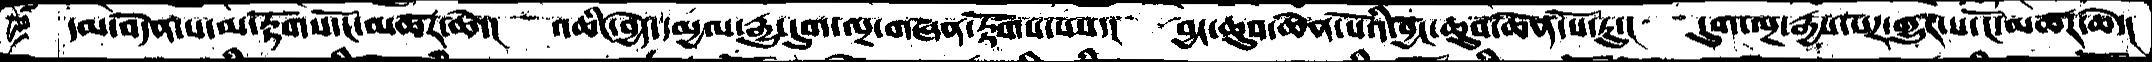དམ་བདེན་པ་མ་རྟོགས་ངོ་མཚར་ཆེ་།  འཆིང་བྱེད་དམྱལ་རྒྱུ་དུག་ལྔ་གཞན་རྟོགས་པས་།  བྱང་ཆུབ་ཆེན་པོའི་བྱང་ཆུབ་ཆེན་པོ་རུ་།  དུག་ལྔ་རྒྱས་པར་གྱུར་པ་ངོ་མཚར་ཆེ་།
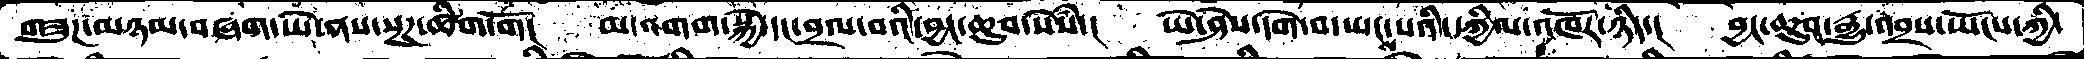གཟུགས་མཉམ་བཞག་ཡེ་ནས་སྔཌ་ཚིག་གོ།  མ་འགག་སྐྱེ་དང་བྲལ་བའི་བྱང་ཆུབ་སེཾས་།  ཡེ་ཤེས་དགེ་བ་ཡངས་པའི་དཀྱིལ་འཁོར་ཉིད་།  བྱང་ཆུབ་རྒྱུ་འབྲས་ཡོངས་ཀྱི་
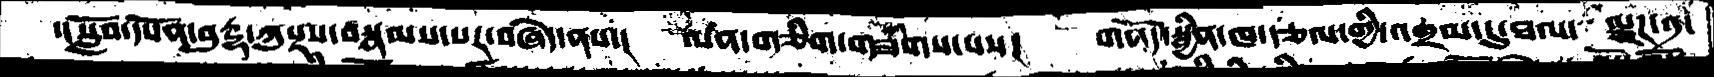་།སློབ་དཔོན་བུརྡྷ་ཀུཔྟས་བསྣམས་པར་བཞེད་ནས་།  ལན་གཅིག་གཟིགས་པས།  གནོད་སྦྱིན་ཁ་རྩལ་གྱི་འགྲམ་དུ་ཐལ་་ ལྗཌ་༡་
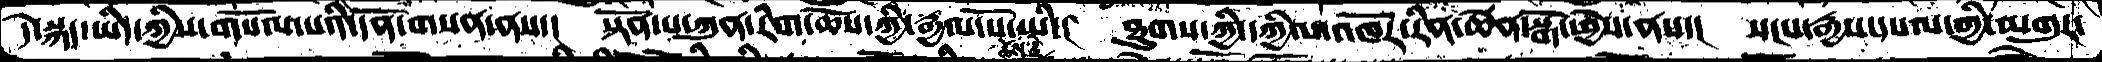དེ་སྐད་ཡིད་ཀྱིས་གསོལ་པའི་དོན་གསན་ནས་།  སྟོན་པ་ཀུན་རིག་ཆོས་ཀྱི་རྒྱལ་པོ་ཡི་།  ཐུགས་ཀྱི་དཀྱིལ་འཁོར་རིན་ཆེན་སྒོ་ཕྱེས་ནས་།  སངས་རྒྱས་དཔལ་གྱི་མགུར་
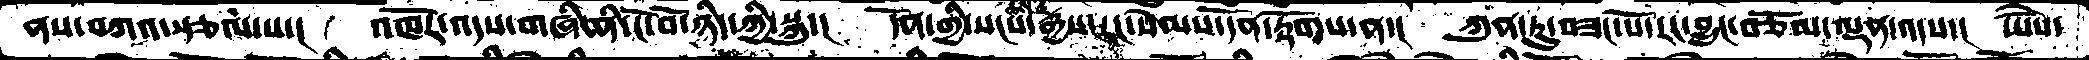ནས་བཀའ་སྩལ་པ་།  འཁོར་འདས་གཞི་ནི་ངོ་བོ་ཉིད་ཀྱི་སྐུ་།  དོན་གྱི་སངས་རྒྱས་རང་སེམས་དོན་རྟོགས་ན་།  ཀུན་ཏུ་བཟང་པོ་རང་བྱུང་བཅོམ་ལྡན་འདས་།  ཡཻས་
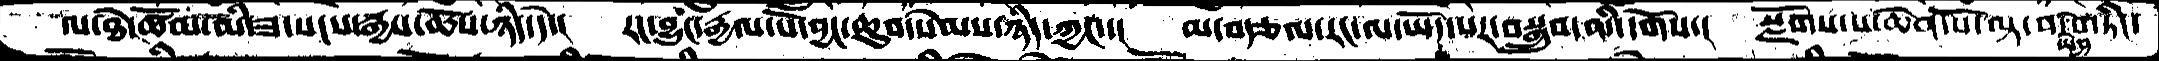ལ་ཐེ་ཚོམ་མི་ཟ་སངས་རྒྱས་ཆོས་ཉིད་དོ་།  རང་བྱུང་རྒྱལ་པོ་བྱང་ཆུབ་སེམས་ཉིད་ཀྱང་།  མ་བརྩལ་རང་ལ་ཡོད་པར་བསྒྲུབ་མི་དགོས་།  སྫོགས་པ་ཆེན་པོ་ལྟ་བ་སྤྱན་གཏིང་
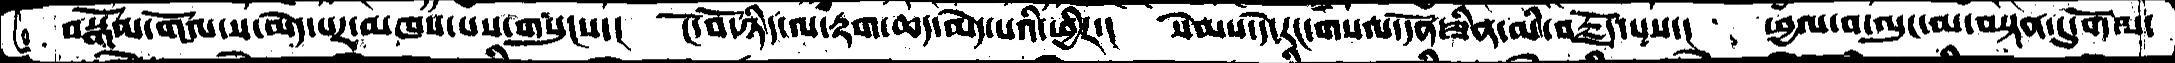བསྒོམ་གོལ་ས་མེད་པར་མཁས་པས་གསུངས་།  ངོ་བོ་ཉིད་ལ་རྟག་ཆད་མེད་པའི་ཕྱིར་།  སེམས་དེ་རང་གསལ་དོན་ཟིན་མི་བརྗོད་པས་།  ཕྱལ་བ་ལུང་མ་བསྟན་དུ་གོལ་
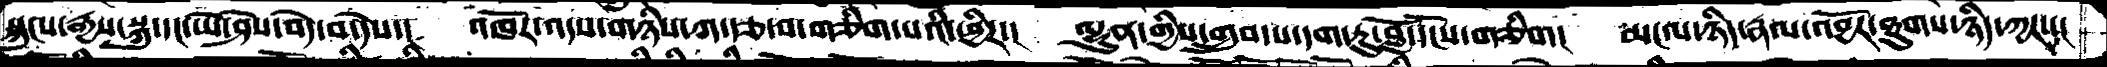སྐུངས་རྒྱས་སྐུ་དང་ཡེ་ཤེས་བདེ་བ་དེས་།  འཁོར་འདས་གཉིས་ཀ་རྩ་བ་གཅིག་པའི་ཕྱིར་།  ལྷུན་གྱིས་གྲུབ་པ་དག་ཏུ་བློ་དངོས་གཅིག།  མངལ་ཉིད་རྣལ་འབྱོར་ཐུགས་ཉིད་ཀྱང་།།།
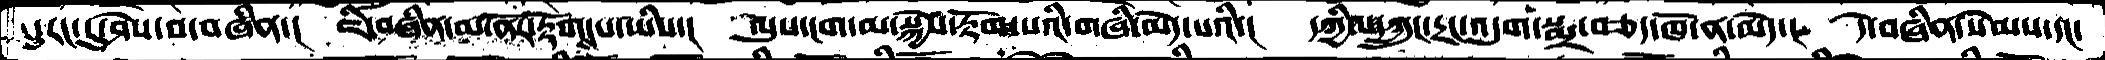དུ་རང་དུ་ཤེས་བ་བཞིན་།  ཇི་བཞིན་མ་ནོར་རྟོགས་པ་ཡིས་།  ལུས་ངག་མ་སྐྱེས་རྟོག་པའི་གཞི་མེད་པའི་།  དཀྱིལ་ཀྲུང་དྲང་འདུག་སྨྲ་བཅད་ཁོ་ན་མེད་།  དེ་བཞིན་སེམས་དང་
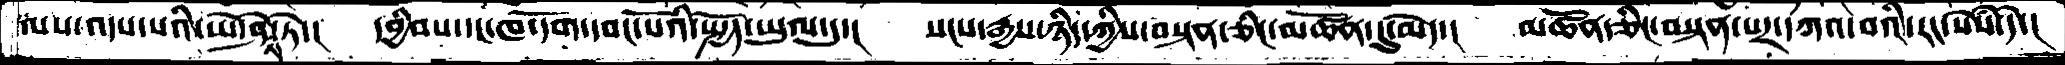ལས་འདས་པའི་ཡེ་ཤེས་ཏེ་།  དབྱིབས་དང་ཁ་དོག་དབང་པོའི་སྤྱོད་ཡུལ་དུ་།  སངས་རྒྱས་ཉིད་ཀྱིས་བསྟན་ཅིང་མཚོན་དུ་མེད་།  མཚོན་ཅིང་བསྟན་པར་དཀའ་བའི་རང་སེཾས་དེ་།
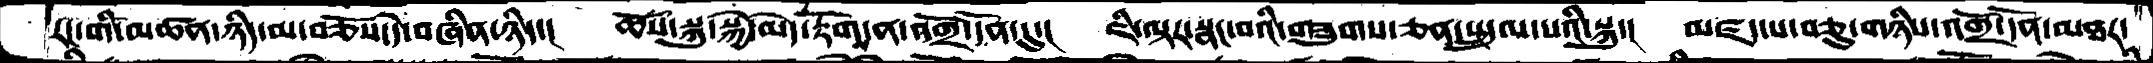རང་གི་མཚན་ཉིད་མ་བཅོས་དེ་བཞིན་ཉིད་། ཆོས་སྐུ་སྐྱེ་མེད་རྟོགས་ན་འགྲོ་དོན་དུ་། ཇི་ལྟར་སྣང་བའི་གཟུགས་ཅན་སྤྲུལ་པའི་སྐུ་། མཛད་པ་བཅུ་གཉིས་འགྲོ་དོན་མཐར་
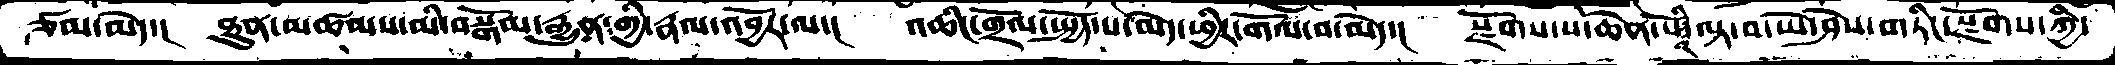ཙམ་མེད་། ཐུན་མཚམས་མི་བསྒོམ་རྒྱུན་གྱི་རྣལ་འབྱོར་ལ་། འཆིང་གྲོལ་སྤྱོད་པ་མེད་ཕྱིར་གོལ་བ་མེད་། སྫོགས་པ་ཆེན་པོའི་ལྟ་བ་ཡེ་ཤེས་གཏིང་སྫོགས་ཀྱི་
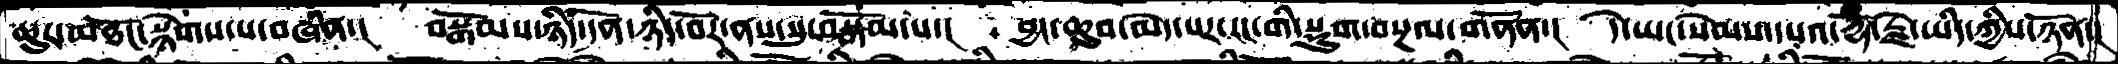ཆུར་མཐོང་སྙེགས་པ་བཞིན་།  བསྒོམས་ཉིད་དོན་ཉིད་བོར་ནས་སུ་བསྒོམ་པ་། བྱང་ཆུབ་མེད་པར་རང་གི་སྡུག་བསྔལ་གནོན་། དེ་ཡང་སེམས་དཔའ་རྡོ་རྗེ་ཡིད་ཀྱིས་ཉོན་།
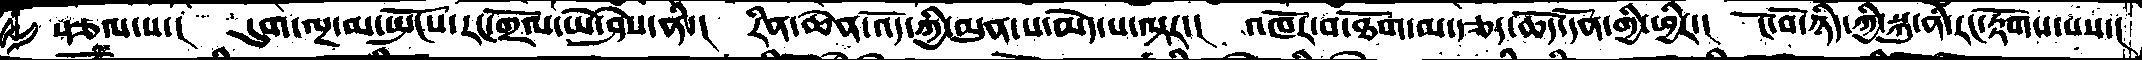སྩལ་པ་། དུག་ལྔ་མ་སྤོངས་རང་གྲོལ་ཡེ་ཤེས་ནི་། རིན་ཆེན་འོད་ཀྱི་མུན་པ་མེད་པ་ལྟར་། འཁོར་བ་ཐོག་མ་རྩད་ཆོད་དོན་གྱི་ཕྱིར་། ངོ་བོ་ཉིད་ཀྱི་སྐུ་ནི་རང་རྟོགས་པས་།
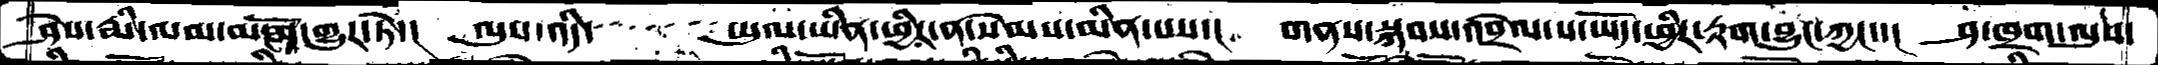ཤེས་རྨི་ལམ་མངོན་གྱུར་ཏེ་།  ལུས་འདི་་་་་་་ཡུལ་ཡིན་ཕྱིར་ན་སེམས་མིན་པས་། གནས་སྐབས་འབྲེལ་པ་ཡོད་ཕྱིར་རྟག་བྱུང་ཀྱང་་། ཤ་ཁྲག་ལུས་
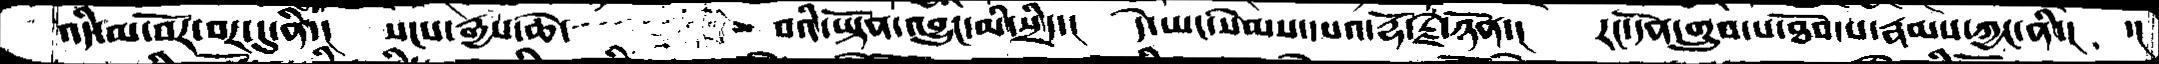འདི་མ་བོར་བར་དུ་ནི་། སངས་རྒྱས་ཆེ་་་་་་་  བའི་ཡྟོན་འབྱུང་མི་སྲིད་།  དེ་ཡང་སེམས་དཔའ་རྡོ་རྗེ་ཉོན་།  རང་དོན་གྲུབ་པ་ཐོབ་པ་རྣམས་ཀྱང་ནི་།  ་།
